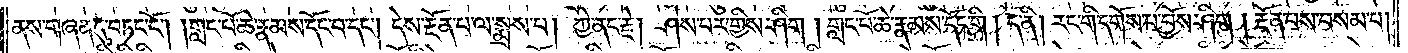ནས་གཞན་དུ་བཏང་ངོ༌། །གླང་པོ་ཆེ་རྣམས་དོང་བ་དང༌། དེས་རྔོན་པ་ལ་སྨྲས་པ། ཀྱེ་ནང་རྗེ། ཤེས་པར་གྱིས་ཤིག །གླང་པོ་ཆེ་རྣམས་དོང་གི། ད་ནི། རང་གི་དགོས་པ་བྱོས་ཤིག །རྔོན་པས་བསམ་པ།
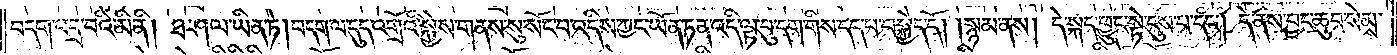བདག་འདྲ་བའི་མི་ནི། ཐ་ཤལ་ཡིན་ཏེ། བདག་ལ་དུད་འགྲོའི་སྐྱེས་གནས་སུ་སོང་བ་འདིས་ཀྱང་ཡོན་ཏན་འདི་ལྟ་བུ་དག་གིས་དད་པ་བསྐྱེད་དོ། །སྙམ་ནས། དེ་སྐད་ཕྱུང་སྟེ་ངུས་པ་དང༌། དེ་ནས་བྱང་ཆུབ་སེམས་
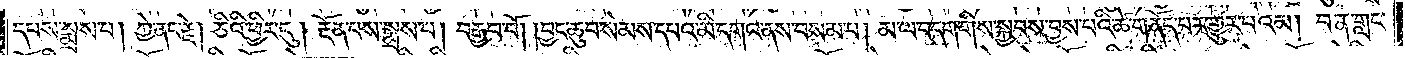དཔས་སྨྲས་པ། ཀྱེ་ནང་རྗེ། ཅིའི་ཕྱིར་དུ། རྔོན་པས་སྨྲས་པ། བརྒྱབ་བོ། །བྱང་ཆུབ་སེམས་དཔའ་མི་དགའ་ནས་བསམ་པ། མ་ལ་བདག་གིས་སྐྱབས་བྱས་པའི་ཚེ་གནོད་པར་གྱུར་པའམ། བན་གླང་
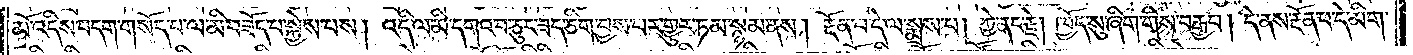མོ་འདིས་བདག་གསོད་པ་ལ་མི་བཟོད་པ་སྐྱེས་པས། འདི་ལ་མི་དགའ་བ་ཅུང་ཟད་ཅིག་བྱས་པར་གྱུར་ཏམ་སྙམ་ནས། རྔོན་པ་དེ་ལ་སྨྲས་པ། ཀྱེ་ནང་རྗེ། ཁྱོད་སུ་ཞིག་གིས་བརྒྱབ། དེ་ནས་རྔོན་པ་དེ་མིག་
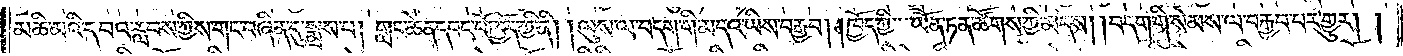མཆི་མའི་དབའ་རླབས་ཀྱིས་གང་བཞིན་དུ་སྨྲས་པ། གླང་ཆེན་དབང་པོ་ཁྱོད་ཀྱི་ནི། །ལུས་ལ་བདག་གི་མདའ་ཡིས་བརྒྱབ། །ཁྱོད་ཀྱི་ཡོན་ཏན་ཚོགས་ཀྱི་མདས། །བདག་གི་སེམས་ལ་བརྒྱབ་པར་གྱུར། །
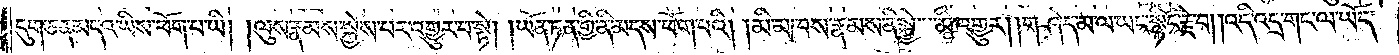དུག་ཅན་མདའ་ཡིས་ཕོག་པ་ཡི། །ལུས་རྣམས་སྐྱེས་པར་འགྱུར་བ་སྟེ། །ཡོན་ཏན་གྱི་ནི་མདས་ཕོག་པའི། །མི་མཁས་རྣམས་ནི་སྐྱེ་མི་འགྱུར། །གཤེད་མ་ལ་ཡང་སྙིང་རྗེ་བ། །འདི་འདྲ་གང་ལ་ཡོད་
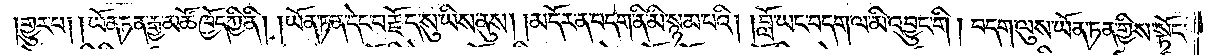གྱུར་པ། །ཡོན་ཏན་རྒྱ་མཚོ་ཁྱོད་ཀྱི་ནི། །ཡོན་ཏན་དེང་བརྗོད་སུ་ཡིས་ནུས། །མདོར་ན་བདག་ནི་མི་སྙམ་པའི། །བློ་ཡང་བདག་ལ་མི་འབྱུང་གི། བདག་ལུས་ཡོན་ཏན་གྱིས་སྟོང་
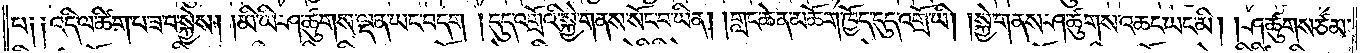པ༑ ༑འདི་ལ་ཚིག་བ་ཟ་བ་སྐྱེས། །མི་ཡི་ཤ་ཚུགས་ལྡན་ཡང་བདག །དུད་འགྲོའི་སྐྱེ་གནས་སོང་བ་ཡིན། །གླང་ཆེན་མཆོག་ཁྱོད་དུད་འགྲོ་ཡི། །སྐྱེ་གནས་ཤ་ཚུགས་འཆང་ཡང་མི། །ཤ་ཚུགས་ཙམ་
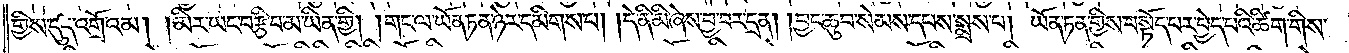གྱིས་དུད་འགྲོའམ། །མིར་ཡང་བརྩི་བ་མ་ཡིན་གྱི། །གང་ལ་ཡོན་ཏན་ཉེར་དམིགས་པ། །དེ་ནི་མི་ཞེས་བྱ་བར་དྲན། །བྱང་ཆུབ་སེམས་དཔས་སྨྲས་པ། ཡོན་ཏན་གྱིས་བསྟོད་པར་བྱེད་པའི་ཚིག་གིས་
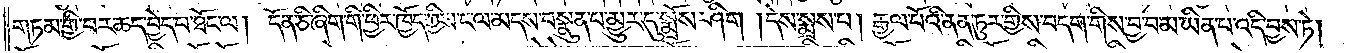གཏམ་གྱི་བར་ཆད་བྱེད་པ་ཐོང་ལ། དོན་ཅི་ཞིག་གི་ཕྱིར་ཁྱོད་ཀྱིས་ང་ལ་མདས་བསྣུན་པ་མྱུར་དུ་སྨྲོས་ཤིག །དེས་སྨྲས་པ། རྒྱལ་པོའི་ནན་ཏུར་གྱིས་བདག་གིས་བྱ་བ་མ་ཡིན་པ་འདི་བྱས་ཏེ།
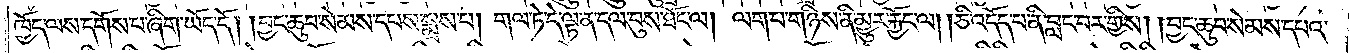ཁྱོད་ལས་དགོས་པ་ཞིག་ཡོད་དོ། །བྱང་ཆུབ་སེམས་དཔས་སྨྲས་པ། གལ་ཏེ་དེ་ལྟ་ན་དལ་བུས་ཐོང་ལ། ལག་པ་གཉིས་ནི་མྱུར་རྐྱོང་ལ། །ཅི་འདོད་པ་ནི་བླང་བར་གྱིས། །བྱང་ཆུབ་སེམས་དཔའ་
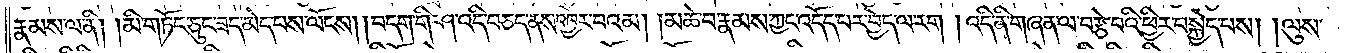རྣམས་ལ་ནི། །མི་གཏོང་ཅུང་ཟད་མེད་པས་ལོངས། །བདག་གི་ཤ་འདི་བཅད་ནས་འཁྱེར་བའམ། །མཆེ་བ་རྣམས་ཀྱང་འདོད་པར་བྱེད་ལ་རག །འདི་ནི་གཞན་ལ་བརྩེ་བའི་ཕྱིར་བསྐྱེད་པས། །ལུས་
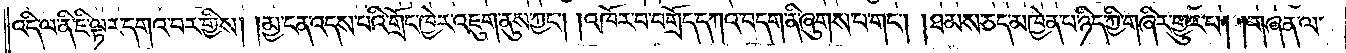འདི་ལ་ནི་ཇི་ལྟར་དགའ་བར་གྱིས། །མྱ་ངན་འདས་པའི་གྲོང་ཁྱེར་འཇུག་ནུས་ཀྱང༌། །འཁོར་བ་བགྲོད་དཀའ་བདག་ནི་ཞུགས་པ་གང༌། །ཐམས་ཅད་མཁྱེན་པ་ཉིད་ཀྱི་གཞིར་གྱུར་པ། །གཞན་ལ་
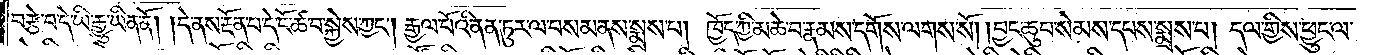བརྩེ་བ་དེ་ཡི་རྒྱུ་ཡིན་ནོ། །དེ་ནས་རྔོན་པ་དེ་ངོ་ཚ་བ་སྐྱེས་ཀྱང༌། རྒྱལ་པོའི་ནན་ཏུར་ལ་བསམ་ནས་སྨྲས་པ། ཁྱོད་ཀྱི་མཆེ་བ་རྣམས་དགོས་ལགས་སོ། །བྱང་ཆུབ་སེམས་དཔས་སྨྲས་པ། དལ་གྱིས་ཕྱུང་ལ་
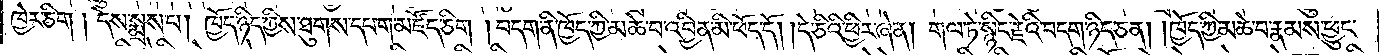ཁྱེར་ཅིག །དེས་སྨྲས་པ། ཁྱོད་ཉིད་ཀྱིས་ཐུགས་དཔག་མཛོད་ཅིག །བདག་ནི་ཁྱོད་ཀྱི་མཆེ་བ་འབྱིན་མི་ཕོད་དོ། །དེ་ཅིའི་ཕྱིར་ཞེ་ན། གལ་ཏེ་སྙིང་རྗེའི་བདག་ཉིད་ཅན། །ཁྱོད་ཀྱི་མཆེ་བ་རྣམས་ཕྱུང་
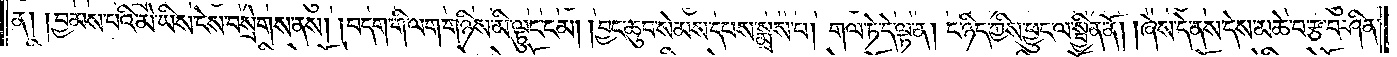ན། །བྱམས་པའི་མེ་ཡིས་ངེས་བསྲེགས་ནས། །བདག་གི་ལག་གཉིས་མི་ལྟུང་ངམ། །བྱང་ཆུབ་སེམས་དཔས་སྨྲས་པ། གལ་ཏེ་དེ་ལྟ་ན། ང་ཉིད་ཀྱིས་ཕྱུང་ལ་སྦྱིན་ནོ། །ཞེས་དེ་ནས་དེས་མཆེ་བ་རྩ་བ་ཤིན་
